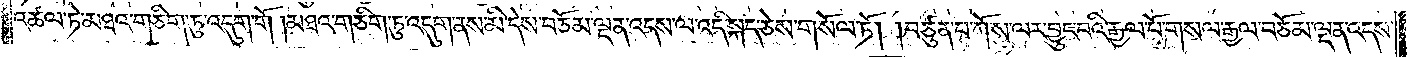འཚལ་ཏེ་མཐའ་གཅིག་ཏུ་འདུག་གོ །མཐའ་གཅིག་ཏུ་འདུག་ནས་མི་དེས་བཅོམ་ལྡན་འདས་ལ་འདི་སྐད་ཅེས་གསོལ་ཏོ། །བཙུན་པ་ཀོ་ས་ལར་བྱུང་བའི་རྒྱལ་པོ་གསལ་རྒྱལ་བཅོམ་ལྡན་འདས་
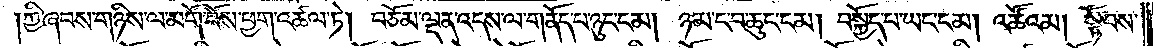ཀྱི་ཞབས་གཉིས་ལ་མགོ་བོས་ཕྱག་འཚལ་ཏེ། བཅོམ་ལྡན་འདས་ལ་གནོད་པ་ཉུང་ངམ། ཉམ་ང་བ་ཆུང་ངམ། བསྐྱོད་པ་ཡང་ངམ། འཚོའམ། སྟོབས་
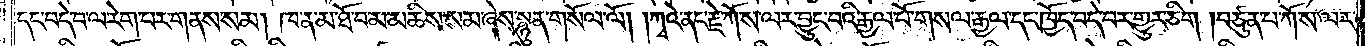དང་བདེ་བ་ལ་རེག་པར་གནས་སམ། ཁ་ན་མ་ཐོ་བ་མ་མཆིས་སམ་ཞེས་སྙུན་གསོལ་ལོ། །ཀྭའི་ནང་རྗེ་ཀོ་ས་ལར་བྱུང་བའི་རྒྱལ་པོ་གསལ་རྒྱལ་དང་ཁྱོད་བདེ་བར་གྱུར་ཅིག །བཙུན་པ་ཀོ་ས་ལར་
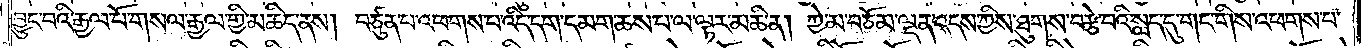བྱུང་བའི་རྒྱལ་པོ་གསལ་རྒྱལ་གྱི་མཆིད་ནས། བཙུན་པ་འཕགས་པ་འདི་དག་དམག་ཆས་པ་ལ་ལྟར་མཆི་ན། ཀྱེ་མ་བཅོམ་ལྡན་འདས་ཀྱིས་ཐུགས་བརྩེ་བའི་སླད་དུ་གང་གིས་འཕགས་པ་
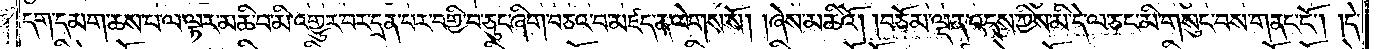དག་དམག་ཆས་པ་ལ་ལྟར་མཆི་བ་མི་འགྱུར་བར་དྲན་པར་བགྱི་བ་ཅུང་ཞིག་བཅའ་བ་མཛད་ན་ལེགས་སོ། །ཞེས་མཆིའོ། །བཅོམ་ལྡན་འདས་ཀྱིས་མི་དེ་ལ་ཅང་མི་གསུང་བས་གནང་ངོ༌། །དེ་
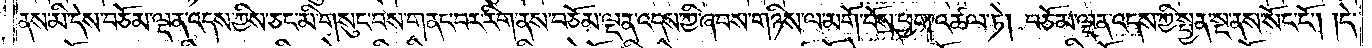ནས་མི་དེས་བཅོམ་ལྡན་འདས་ཀྱིས་ཅང་མི་གསུང་བས་གནང་བར་རིག་ནས་བཅོམ་ལྡན་འདས་ཀྱི་ཞབས་གཉིས་ལ་མགོ་བོས་ཕྱག་འཚལ་ཏེ། བཅོམ་ལྡན་འདས་ཀྱི་སྤྱན་སྔ་ནས་སོང་ངོ༌། །དེ་
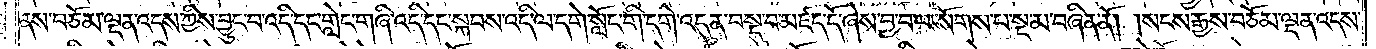ནས་བཅོམ་ལྡན་འདས་ཀྱིས་བྱུང་བ་འདི་དང་གླེང་གཞི་འདི་དང་སྐབས་འདི་ལ་དགེ་སློང་གི་དགེ་འདུན་བསྡུ་བ་མཛད་དོ་ཞེས་བྱ་བ་ལ་སོགས་པ་སྔ་མ་བཞིན་ནོ། །སངས་རྒྱས་བཅོམ་ལྡན་འདས་
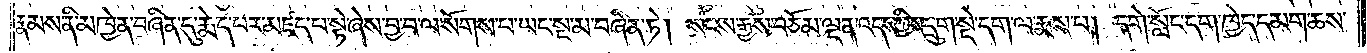རྣམས་ནི་མཁྱེན་བཞིན་དུ་རྨེད་པར་མཛད་པ་སྟེ་ཞེས་བྱ་བ་ལ་སོགས་པ་ཡང་སྔ་མ་བཞིན་ཏེ། སངས་རྒྱས་བཅོམ་ལྡན་འདས་ཀྱིས་དྲུག་སྡེ་དག་ལ་རྨས་པ། དགེ་སློང་དག་ཁྱེད་དམག་ཆས་
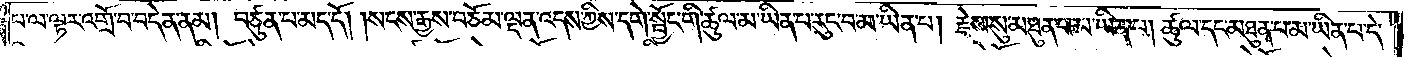པ་ལ་ལྟར་འགྲོ་བ་བདེན་ནམ། བཙུན་པ་མད་དོ། །སངས་རྒྱས་བཅོམ་ལྡན་འདས་ཀྱིས་དགེ་སྦྱོང་གི་ཚུལ་མ་ཡིན་པ་རུང་བ་མ་ཡིན་པ། རྗེས་སུ་མཐུན་པ་མ་ཡིན་པ། ཚུལ་དང་མཐུན་པ་མ་ཡིན་པ་དེ་
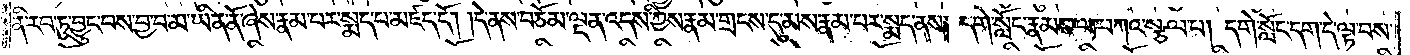ནི་རབ་ཏུ་བྱུང་བས་བྱ་བ་མ་ཡིན་ནོ་ཞེས་རྣམ་པར་སྨད་པ་མཛད་དོ། །དེ་ནས་བཅོམ་ལྡན་འདས་ཀྱིས་རྣམ་གྲངས་དུ་མས་རྣམ་པར་སྨད་ནས། དགེ་སློང་རྣམས་ལ་བཀའ་སྩལ་པ། དགེ་སློང་དག་དེ་ལྟ་བས་
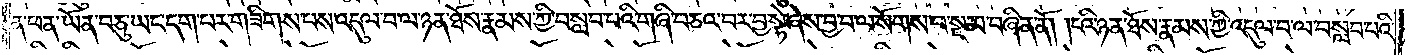ན་ཕན་ཡོན་བཅུ་ཡང་དག་པར་གཟིགས་པས་འདུལ་བ་ལ་ཉན་ཐོས་རྣམས་ཀྱི་བསླབ་པའི་གཞི་བཅའ་བར་བྱ་སྟེ་ཞེས་བྱ་བ་ལ་སོགས་པ་སྔ་མ་བཞིན་ནོ། །ངའི་ཉན་ཐོས་རྣམས་ཀྱི་འདུལ་བ་ལ་བསླབ་པའི་
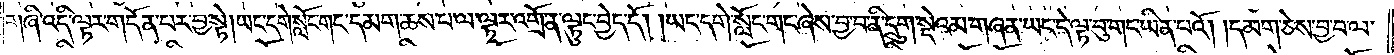གཞི་འདི་ལྟར་གདོན་པར་བྱ་སྟེ།ཡང་དགེ་སློང་གང་དམག་ཆས་པ་ལ་ལྟར་འགྲོ་ན་ལྟུང་བྱེད་དོ། །ཡང་དགེ་སློང་གང་ཞེས་བྱ་བ་ནི་དྲུག་སྡེའམ་གཞན་ཡང་དེ་ལྟ་བུ་གང་ཡིན་པའོ། །དམག་ཅེས་བྱ་བ་ལ་
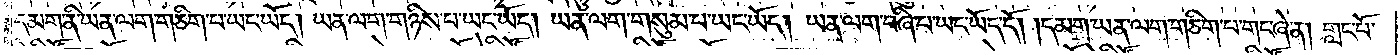དམག་ནི་ཡན་ལག་གཅིག་པ་ཡང་ཡོད། ཡན་ལག་གཉིས་པ་ཡང་ཡོད། ཡན་ལག་གསུམ་པ་ཡང་ཡོད། ཡན་ལག་བཞི་པ་ཡང་ཡོད་དོ། །དམག་ཡན་ལག་གཅིག་པ་གང་ཞེ་ན། གླང་པོ་
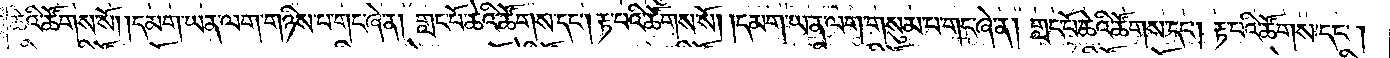ཆེའི་ཚོགས་སོ། །དམག་ཡན་ལག་གཉིས་པ་གང་ཞེ་ན། གླང་པོ་ཆེའི་ཚོགས་དང༌། རྟ་པའི་ཚོགས་སོ། །དམག་ཡན་ལག་གསུམ་པ་གང་ཞེ་ན། གླང་པོ་ཆེའི་ཚོགས་དང༌། རྟ་པའི་ཚོགས་དང༌།
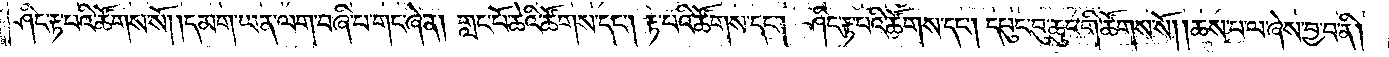ཤིང་རྟ་པའི་ཚོགས་སོ། །དམག་ཡན་ལག་བཞི་པ་གང་ཞེ་ན། གླང་པོ་ཆེའི་ཚོགས་དང༌། རྟ་པའི་ཚོགས་དང༌། ཤིང་རྟ་པའི་ཚོགས་དང༌། དཔུང་བུ་ཆུང་གི་ཚོགས་སོ། །ཆས་པ་ལ་ཞེས་བྱ་བ་ནི།
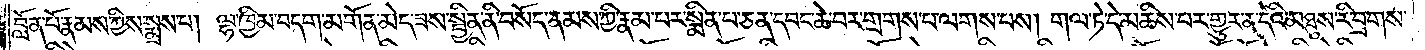བློན་པོ་རྣམས་ཀྱིས་སྨྲས་པ། ལྷ་ཁྱིམ་བདག་མགོན་མེད་ཟས་སྦྱིན་ནི་བསོད་ནམས་ཀྱི་རྣམ་པར་སྨིན་པ་ཅན་དབང་ཆེ་བར་གྲགས་པ་ལགས་པས། གལ་ཏེ་དེ་མཆིས་པར་གྱུར་ན་དེའི་མཐུས་རི་བྲགས་
